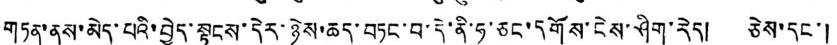གཏན་ནས་མེད་པའི་བྱེད་སྟངས་དེར་ཉེས་ཆད་བཏང་བ་དེ་ནི་ཧ་ཅང་དགོས་ངེས་ཤིག་རེད། ཅེས་དང་།
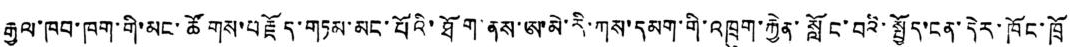རྒྱལ་ཁབ་ཁག་གི་མང་ཚོགས་བརྗོད་གཏམ་མང་པོའི་ཐོག་ནས་ཨ་མེ་རི་ཀས་དམག་གི་འཁྲུག་རྐྱེན་སློང་བའི་སྤྱོད་ངན་དེར་ཁོང་ཁྲོ་
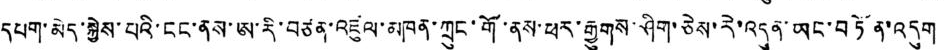དཔག་མེད་སྐྱེས་པའི་ངང་ནས་ཨ་རི་བཙན་འཛུལ་མཁན་ཀྲུང་གོ་ནས་ཕར་རྒྱུགས་ཤིག་ཅེས་རེ་འདུན་ཡང་བཏོན་འདུག
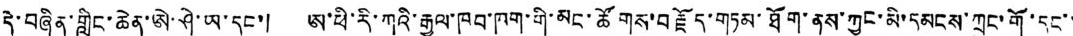དེ་བཞིན་གླིང་ཆེན་ཨེ་ཤེ་ཡ་དང་། ཨ་ཕི་རི་ཀའི་རྒྱལ་ཁབ་ཁག་གི་མང་ཚོགས་བརྗོད་གཏམ་ཐོག་ནས་ཀྱང་མི་དམངས་ཀྲུང་གོ་དང་་
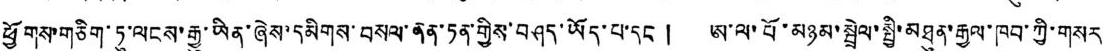ཕྱོགས་གཅིག་ཏུ་ལངས་རྒྱུ་ཡིན་ཞེས་དམིགས་བསལ་ནན་ཏན་གྱིས་བཤད་ཡོད་པ་དང ། ཨ་ལ་པོ་མཉམ་སྦྲེལ་སྤྱི་མཐུན་རྒྱལ་ཁབ་ཀྱི་གསར་
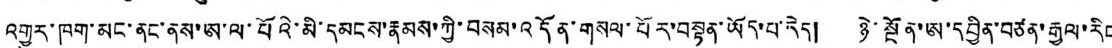འགྱུར་ཁག་མང་ནང་ནས་ཨ་ལ་པོའི་མི་དམངས་རྣམས་ཀྱི་བསམ་འདོན་གསལ་པོར་བསྟན་ཡོད་པ་རེད། ཉེ་སྔོན་ཨ་དབྱིན་བཙན་རྒྱལ་རིང
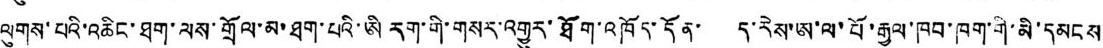ལུགས་པའི་འཆིང་ཐག་ལས་གྲོལ་མ་ཐག་པའི་ཨི རག་གི་གསར་འགྱུར་ཐོག་འཁད་དོན་ ད་རེས་ཨ་ལ་པོ་རྒྱལ་ཁབ་ཁག་གི་མི་དམངས་
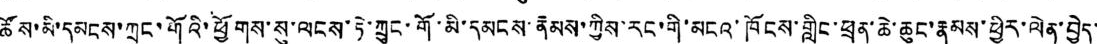ཚོས་མི་དམངས་ཀྲུང་གོའི་ཕྱོགས་སུ་ལངས་ཏེ་ཀྲུང་གོ་མི་དམངས་རྣམས་ཀྱིས་རང་གི་མངའ་ཁོངས་གླིང་ཕྲན་ཆེ་ཆུང་རྣམས་ཕྱིར་ལེན་བྱེད་་
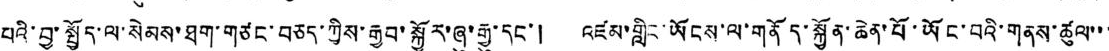པའི་བྱ་སྤྱོད་ལ་སེམས་ཐག་གཙང་བཅད་ཀྱིས་རྒྱབ་སྐྱོར་ཞུ་རྒྱུ་དང་། འཛམ་གླིང་ཡོངས་ལ་གནོད་སྐྱོན་ཆེན་པོ་ཡོང་བའི་གནས་ཚུལ་་་
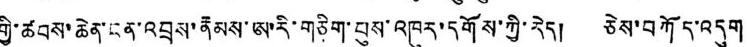གྱི་ཚབས་ཆེན་ངན་འབྲས་རྣམས་ཨ་རི་གཅིག་པུས་འཁུར་དོགས་ཀྱི་རེད། ཅེས་བཀོད་འདུག
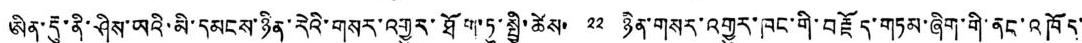ཡིན་རྡུ་ནི་ཤིས་ཡའི་མི་དམངས་ཉིན་རེའི་གསར་འགྱུར་ཐོག་ཏུ་སྤྱི་ཚེས་ ༢༢ ཉིན་གསར་འགྱུར་ཁང་གི་བརྗོད་གཏམ་ཞིག་གི་ནང་འཁོད་
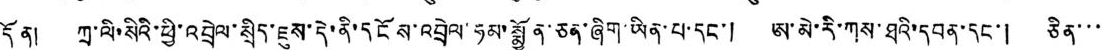དོན། ཀྲ་ལི་སིའི་ཕྱི་འབྲེལ་སྲིད་ཇུས་དེ་ནི་དངོས་འབྲེལ་ཧམ་སྨྱོན་ཅན་ཞིག་ཡིན་པ་དང་། ཨ་མེ་རི་ཀས་ཐའི་དབན་དང་། ཅིན་་་་
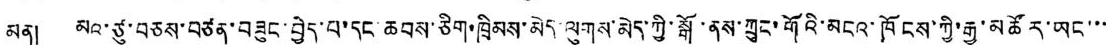མན། མའ་ཙུ་བཅས་བཙན་བཟུང་བྱེད་པ་དང་ཆབས་ཅིག་ཁྲིམས་མེད་ལུགས་མེད་ཀྱི་སྒོ་ནས་ཀྲུང་གོའི་མངའ་ཁོངས་ཀྱི་རྒྱ་མཚོར་ཡང་་་
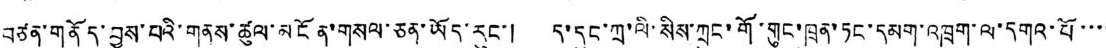བཙན་གནོད་བྱས་པའི་གནས་ཚུལ་མངོན་གསལ་ཅན་ཡོད་རུང་། ད་དུང་ཀྲ་ལི་སིས་ཀྲུང་གོ་གུང་ཁྲན་ཏང་དམག་འཁྲུག་ལ་དགའ་པོ་་་་
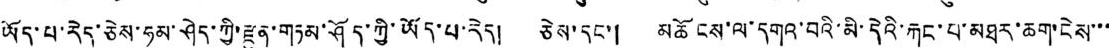ཡོད་པ་རེད་ཅེས་ཧམ་ཤེད་ཀྱི་རྫུན་གཏམ་ཤོད་ཀྱི་ཡོད་པ་རེད། ཅེས་དང་། མཆོངས་ལ་དགའ་བའི་མི་དེའི་རྐང་པ་མཐར་ཆག་ངེས་་་
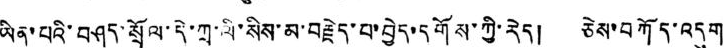ཡིན་པའི་བཤད་སྲོལ་དེ་ཀྲ་ལི་སིས་མ་བརྗེད་པ་བྱེད་དགོས་ཀྱི་རེད། ཅེས་བཀོད་འདུག
